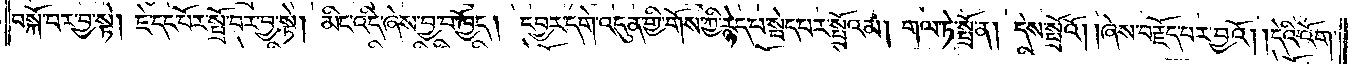བསྐོ་བར་བྱ་སྟེ། ཇེ་དང་པོར་སྤྲོ་བར་བྱ་སྟེ། མིང་འདི་ཞེས་བྱ་བ་ཁྱོད། དབྱར་དགེ་འདུན་གྱི་གོས་ཀྱི་རྙེད་པ་སྦེད་པར་སྤྲོའམ། གལ་ཏེ་སྤྲོ་ན། དེས་སྤྲོའོ། །ཞེས་བརྗོད་པར་བྱའོ། །དེའི་འོག་
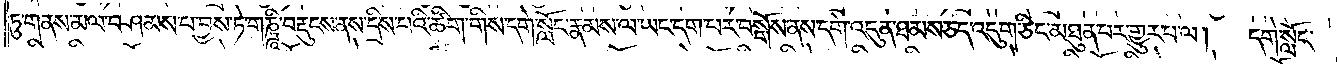ཏུ་གནས་མལ་བཤམས་པ་བྱས་ཏེ་གཎྜཱི་བརྡུངས་ནས་དྲིས་པའི་ཚིག་གིས་དགེ་སློང་རྣམས་ལ་ཡང་དག་པར་བསྒོས་ནས་དགེ་འདུན་ཐམས་ཅད་འདུག་ཅིང་མཐུན་པར་གྱུར་པ་ལ། དགེ་སློང་
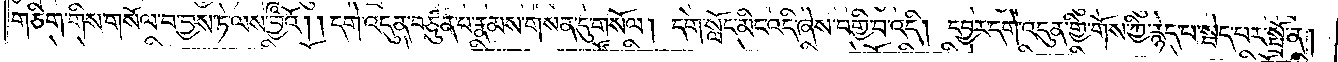གཅིག་གིས་གསོལ་བ་བྱས་ཏེ་ལས་བྱའོ། །དགེ་འདུན་བཙུན་པ་རྣམས་གསན་དུ་གསོལ། དགེ་སློང་མིང་འདི་ཞེས་བགྱི་བ་འདི། དབྱར་དགེ་འདུན་གྱི་གོས་ཀྱི་རྙེད་པ་སྦེད་པར་སྤྲོ་ན།
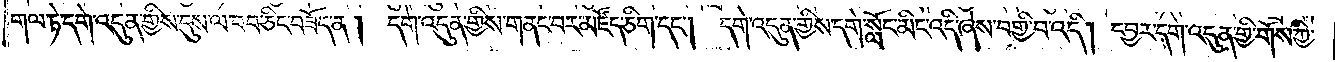གལ་ཏེ་དགེ་འདུན་གྱིས་དུས་ལ་བབ་ཅིང་བཟོད་ན། དགེ་འདུན་གྱིས་གནང་བར་མཛོད་ཅིག་དང༌། དགེ་འདུན་གྱིས་དགེ་སློང་མིང་འདི་ཞེས་བགྱི་བ་འདི། དབྱར་དགེ་འདུན་གྱི་གོས་ཀྱི་
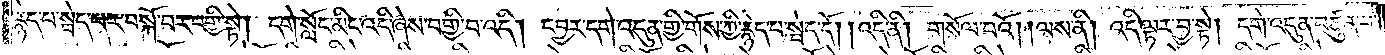རྙེད་པ་སྦེད་པར་བསྐོ་བར་བགྱི་སྟེ། དགེ་སློང་མིང་འདི་ཞེས་བགྱི་བ་འདི། དབྱར་དགེ་འདུན་གྱི་གོས་ཀྱི་རྙེད་པ་སྦེད་དོ། །འདི་ནི། གསོལ་བའོ། །ལས་ནི། འདི་ལྟར་བྱ་སྟེ། དགེ་འདུན་བཙུན་པ་
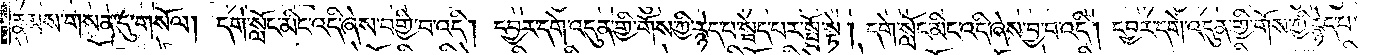རྣམས་གསན་དུ་གསོལ། དགེ་སློང་མིང་འདི་ཞེས་བགྱི་བ་འདི། དབྱར་དགེ་འདུན་གྱི་གོས་ཀྱི་རྙེད་པ་སྦེད་པར་སྤྲོ་སྟེ། དགེ་སློང་མིང་འདི་ཞེས་བྱ་བ་འདི། དབྱར་དགེ་འདུན་གྱི་གོས་ཀྱི་རྙེད་པ་
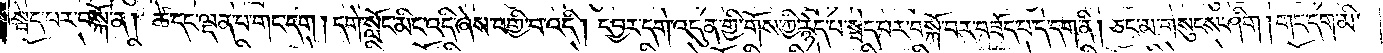སྦེད་པར་བསྐོ་ན། ཚེ་དང་ལྡན་པ་གང་དག །དགེ་སློང་མིང་འདི་ཞེས་བགྱི་བ་འདི། དབྱར་དགེ་འདུན་གྱི་གོས་ཀྱི་རྙེད་པ་སྦེད་པར་བསྐོ་བར་བཟོད་པ་དེ་དག་ནི། ཅང་མ་གསུངས་ཤིག །གང་དག་མི་
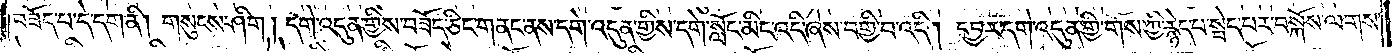བཟོད་པ་དེ་དག་ནི། གསུངས་ཤིག །དགེ་འདུན་གྱིས་བཟོད་ཅིང་གནང་ནས་དགེ་འདུན་གྱིས་དགེ་སློང་མིང་འདི་ཞེས་བགྱི་བ་འདི། དབྱར་དགེ་འདུན་གྱི་གོས་ཀྱི་རྙེད་པ་སྦེད་པར་བསྐོས་ལགས་
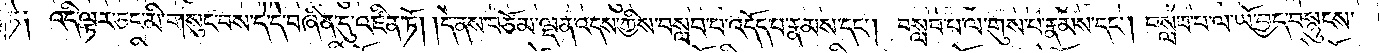ཏེ༑ འདི་ལྟར་ཅང་མི་གསུང་བས་དེ་དེ་བཞིན་དུ་འཛིན་ཏོ། །དེ་ནས་བཅོམ་ལྡན་འདས་ཀྱིས་བསླབ་པ་འདོད་པ་རྣམས་དང༌། བསླབ་པ་ལ་གུས་པ་རྣམས་དང༌། བསླབ་པ་ལ་ཡོ་བྱད་བསྙུངས་
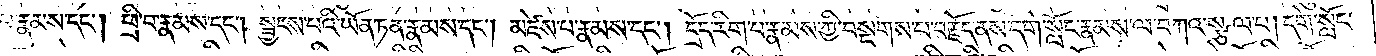པ་རྣམས་དང༌། ཕྲི་བ་རྣམས་དང༌། སྦྱངས་པའི་ཡོན་ཏན་རྣམས་དང༌། མཛེས་པ་རྣམས་དང༌། དྲོད་རིག་པ་རྣམས་ཀྱི་བསྔགས་པ་བརྗོད་ནས་དགེ་སློང་རྣམས་ལ་བཀའ་སྩལ་པ།དགེ་སློང་
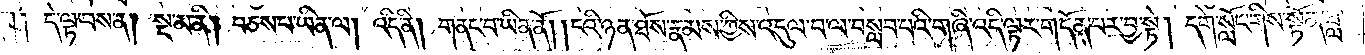དག་༑ དེ་ལྟ་བས་ན། སྔ་མ་ནི། བཅས་པ་ཡིན་ལ། འདི་ནི། གནང་བ་ཡིན་ནོ། །ངའི་ཉན་ཐོས་རྣམས་ཀྱིས་འདུལ་བ་ལ་བསླབ་པའི་གཞི་འདི་ལྟར་གདོན་པར་བྱ་སྟེ། དགེ་སློང་གིས་སྟོན་ཟླ་
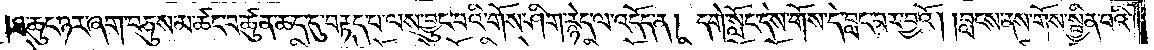ཐ་ཆུང་ཉར་ཞག་བཅུས་མ་ཚང་བ་ཚུན་ཆད་དུ་བརྟད་པ་ལས་བྱུང་བའི་གོས་ཤིག་རྙེད་ལ་འདོད་ན། དགེ་སློང་དེས་གོས་དེ་བླང་བར་བྱའོ། །བླངས་ནས་གོས་སྦྱིན་པའི་
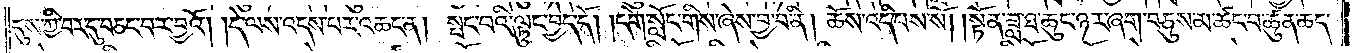དུས་ཀྱི་བར་དུ་བཅང་བར་བྱའོ། །དེ་ལས་འདས་པར་འཆང་ན། སྤང་བའི་ལྟུང་བྱེད་དོ། །དགེ་སློང་གིས་ཞེས་བྱ་བ་ནི། ཆོས་འདི་པས་སོ། །སྟོན་ཟླ་ཐ་ཆུང་ཉར་ཞག་བཅུས་མ་ཚང་བ་ཚུན་ཆད་
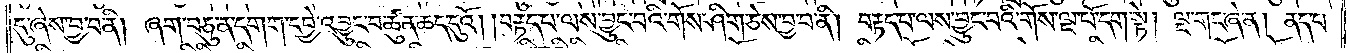དུ་ཞེས་བྱ་བ་ནི། ཞག་བཅུ་ན་དགག་དབྱེ་འབྱུང་བ་ཚུན་ཆད་དུའོ། །བརྟད་པ་ལས་བྱུང་བའི་གོས་ཤིག་ཅེས་བྱ་བ་ནི། བརྟད་པ་ལས་བྱུང་བའི་གོས་ལྔ་པོ་དག་སྟེ། ལྔ་གང་ཞེ་ན། ནད་པ་
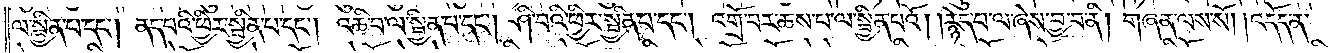ལ་སྦྱིན་པ་དང༌། ནད་པའི་ཕྱིར་སྦྱིན་པ་དང༌། འཆི་བ་ལ་སྦྱིན་པ་དང༌། ཤི་བའི་ཕྱིར་སྦྱིན་པ་དང༌། འགྲོ་བར་ཆས་པ་ལ་སྦྱིན་པའོ། །རྙེད་པ་ལ་ཞེས་བྱ་བ་ནི། གཞན་ལས་སོ། །འདོད་ན་
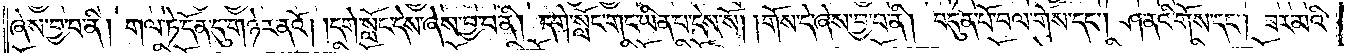ཞེས་བྱ་བ་ནི། གལ་ཏེ་དོན་དུ་གཉེར་ནའོ། །དགེ་སློང་དེས་ཞེས་བྱ་བ་ནི། དགེ་སློང་གང་ཡིན་པ་ངེས་སོ། །གོས་དེ་ཞེས་བྱ་བ་ནི། བདུན་པོ་བལ་གོས་དང༌། ཤ་ནའི་གོས་དང༌། ཟར་མའི་
